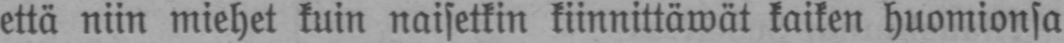että niin miehet kuin naisetkin kiinnittäwät kaiken huomionsa
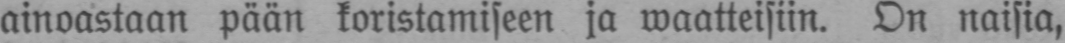ainoastaan pään koristamiseen ja waatteisiin. On naisia,
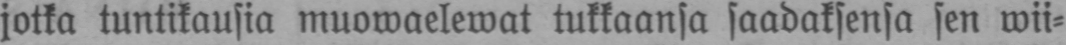jotka tuntikausia muowaelewat tukkaansa saadaksensa sen wii-
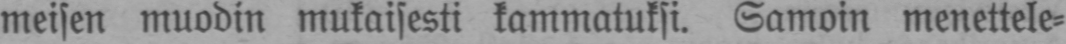meisen muodin mukaisesti kammatuksi. Samoin menettele-
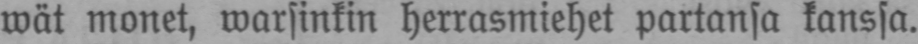wat monet, warsinkin herrasmiehet partansa kanssa.
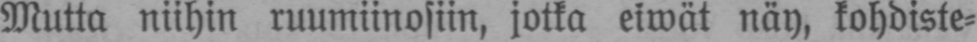Mutta niihin ruumiinosiin, jotka eiwät näy, kohdiste-
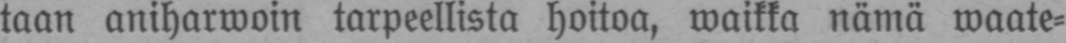taan aniharwoin tarpeellista hoitoa, waikka nämä waate-
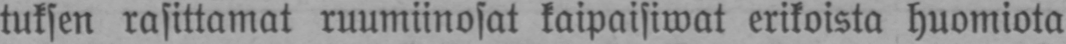tuksen rasittamat ruumiinosat kaipaisiwat erikoista huomiota
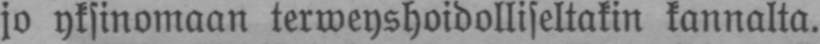jo yksinomaan terweyshoidolliseltakin kannalta.
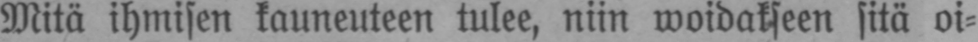Mitä ihmisen kauneuteen tulee, niin woidakseen sitä oi-
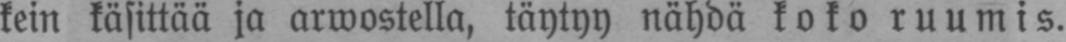kein käsittää ja arwostella, täytyy nähdä koko ruumis.
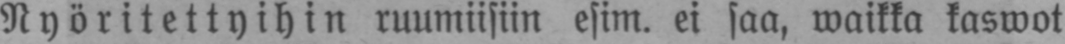Nyöritettyihin ruumiisiin esim. ei saa, waikka kaswot
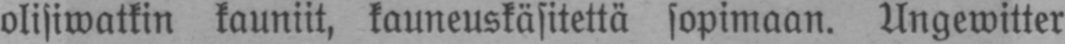olisiwatkin kauniit, kauneuskäsitettä sopimaan. Ungewitter
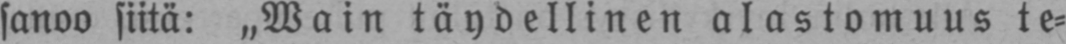sanoo siitä: „Wain täydellinen alastomuus te-
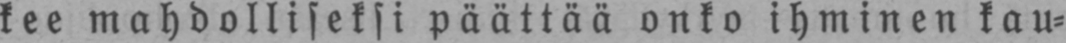kee mahdolliseksi päättää onko ihminen kau-
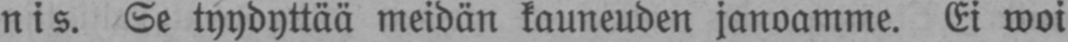nis. Se tyydyttää meidän kauneuden janoamme. Ei woi
